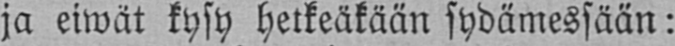ja eiwät kysy hetkeäkään sydämessään:
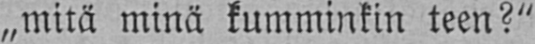„mitä minä kumminkin teen?"
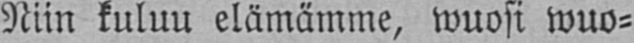Niin kuluu elämämme, wuosi wuo-
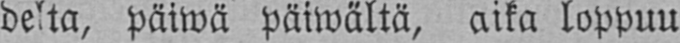delta, päiwä päiwältä, aika loppuu
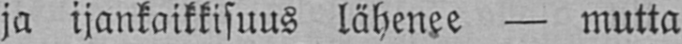ja ijankaikkisuus lähenee — mutta
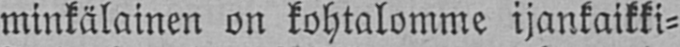minkälainen on kohtalomme ijankaikki-
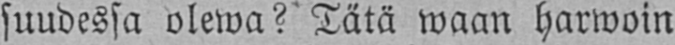suudessa olewa? Tätä waan harwoin
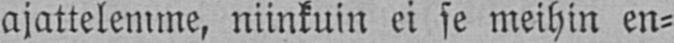ajattelemme, niinkuin ei se meihin en-
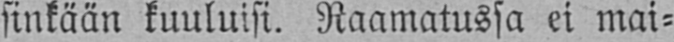sinkään kuuluisi. Raamatussa ei mai-
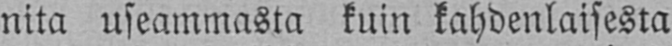nita useammasta kuin kahdenlaisesta
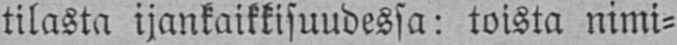tilasta ijankaikkisuudessa: toista nimi-
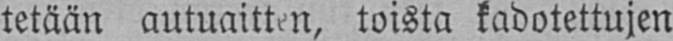tetään autuaitten, toista kadotettujen
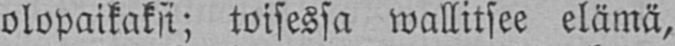olopaikaksi; toisessa wallitsee elämä,
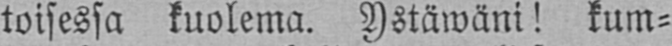toisessa kuolema. Ystäwäni! kum-
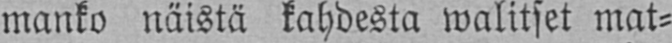manko näistä kahdesta walitset mat-
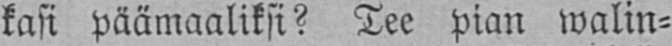kasi päämaaliksi? Tee pian walin-
